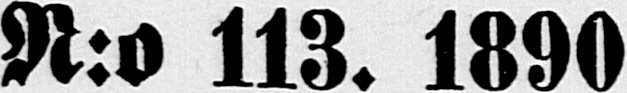N:o 113. 1890.
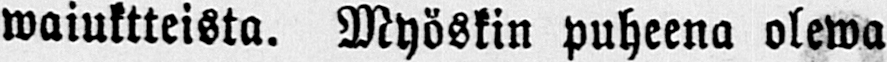waiuktteista. Myöskin puheena olewa
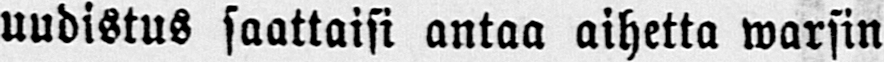uudistus saattaisi antaa aihetta warsin
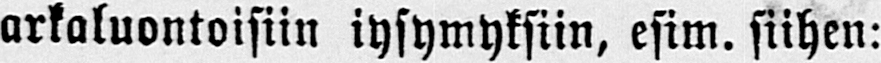arkaluontoisiin iysymyksiin, esim. siihen:
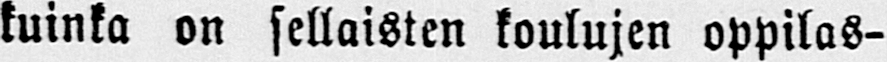kuinka on sellaisten koulujen oppilas-
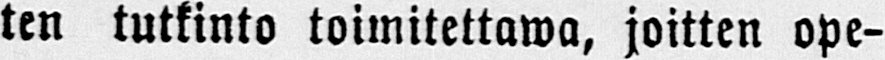ten tutkinto toimitettawa, joitten ope-
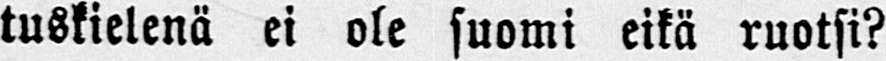tuskielenä ei ole suomi eikä ruotsi?
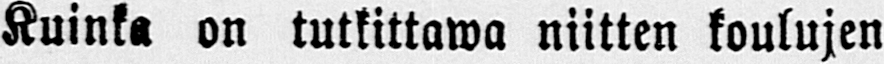Kuinko on tutkittawa niitten koulujen
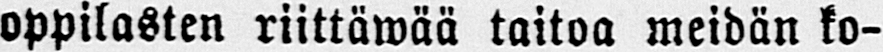oppilasten riittäwää taitoa meidän ko-
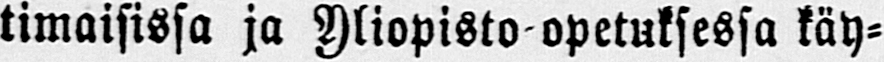timaisissa ja Yliopisto opetuksessa käy-
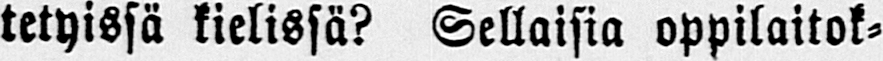tetyissä kielissä? Sellaisia oppilaitok-
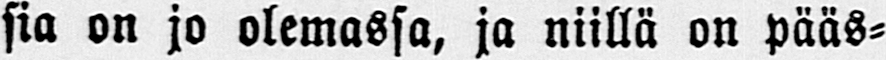sia on jo olemassa, ja niillä on pääs-
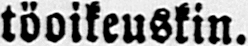töoikeuskin.
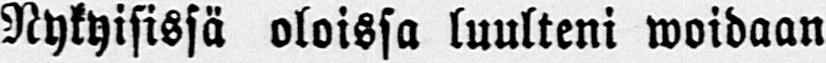Nykyisissä oloissa luulteni woidaan
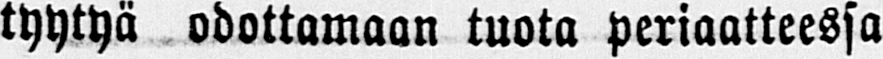tyytyä odottamaan tuota periaatteessa
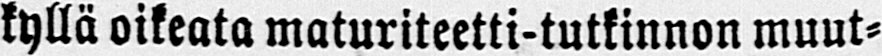kyllä oikeata maturiteetti-tutkinnon muut-
